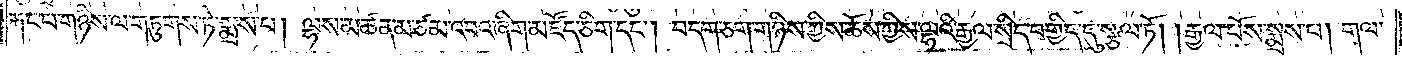རྐང་པ་གཉིས་ལ་གཏུགས་ཏེ་སྨྲས་པ། ལྷས་མཚན་མ་ཙམ་འབའ་ཞིག་མཛོད་ཅིག་དང༌། བདག་ཅག་གཉིས་ཀྱིས་ཆོས་ཀྱིས་ལྷའི་རྒྱལ་སྲིད་བགྱིད་དུ་སྩལ་ཏོ། །རྒྱལ་པོས་སྨྲས་པ། གལ་
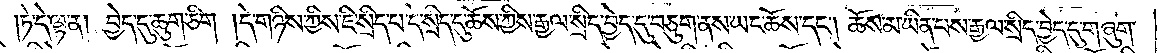།ཏེ་དེ་ལྟ་ན། བྱེད་དུ་ཆུག་ཅིག །དེ་གཉིས་ཀྱིས་ཇི་སྲིད་པ་དེ་སྲིད་དུ་ཆོས་ཀྱིས་རྒྱལ་སྲིད་བྱེད་དུ་བཅུག་ནས་ཡང་ཆོས་དང༌། ཆོས་མ་ཡིན་པས་རྒྱལ་སྲིད་བྱེད་དུ་གཞུག་
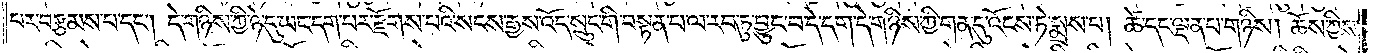པར་བརྩམས་པ་དང༌། དེ་གཉིས་ཀྱི་ཉེ་དུ་ཡང་དག་པར་རྫོགས་པའི་སངས་རྒྱས་འོད་སྲུང་གི་བསྟན་པ་ལ་རབ་ཏུ་བྱུང་བ་དེ་དག་དེ་གཉིས་ཀྱི་གན་དུ་འོངས་ཏེ་སྨྲས་པ། ཚེ་དང་ལྡན་པ་གཉིས། ཆོས་ཀྱིས་
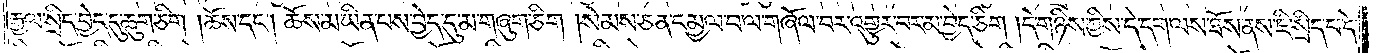རྒྱལ་སྲིད་བྱེད་དུ་ཆུག་ཅིག །ཆོས་དང༌། ཆོས་མ་ཡིན་པས་བྱེད་དུ་མ་གཞུག་ཅིག །སེམས་ཅན་དམྱལ་བ་ལ་གཞོལ་བར་འགྱུར་བར་མ་བྱེད་ཅིག །དེ་གཉིས་ཀྱིས་དེ་དག་ལས་ཐོས་ནས་ཇི་སྲིད་པ་དེ་
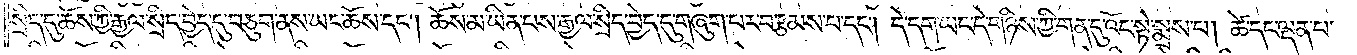སྲིད་དུ་ཆོས་ཀྱི་རྒྱལ་སྲིད་བྱེད་དུ་བཅུག་ནས་ཡང་ཆོས་དང༌། ཆོས་མ་ཡིན་པས་རྒྱལ་སྲིད་བྱེད་དུ་གཞུག་པར་བརྩམས་པ་དང༌། དེ་དག་ཡང་དེ་གཉིས་ཀྱི་གན་དུ་འོང་སྟེ་སྨྲས་པ། ཚེ་དང་ལྡན་པ་
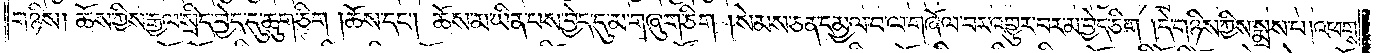གཉིས། ཆོས་ཀྱིས་རྒྱལ་སྲིད་བྱེད་དུ་ཆུག་ཅིག །ཆོས་དང༌། ཆོས་མ་ཡིན་པས་བྱེད་དུ་མ་གཞུག་ཅིག །སེམས་ཅན་དམྱལ་བ་ལ་གཞོལ་བར་འགྱུར་བར་མ་བྱེད་ཅིག །དེ་གཉིས་ཀྱིས་སྨྲས་པ། འཕགས་
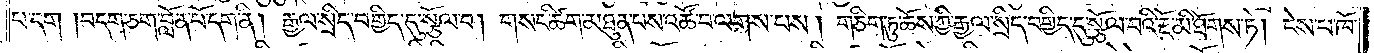པ་དག །བདག་ཅག་བློན་པོ་དག་ནི། རྒྱལ་སྲིད་བགྱིད་དུ་སྩོལ་བ། གསང་ཚིག་མཐུན་པས་འཚོ་བ་ལགས་པས། གཅིག་ཏུ་ཆོས་ཀྱི་རྒྱལ་སྲིད་བགྱིད་དུ་སྩོལ་བའི་རྔོ་མི་ཐོགས་ཏེ། ངེས་པ་ཁོ་
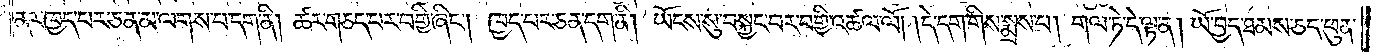ནར་ཁྱེད་པར་ཅན་མ་ལགས་པ་དག་ནི། ཆར་གཅད་པར་བགྱི་ཞིང༌། ཁྱད་པར་ཅན་དག་ནི། ཡོངས་སུ་བསྐྱང་བར་བགྱི་འཚལ་ལོ། །དེ་དག་གིས་སྨྲས་པ། གལ་ཏེ་དེ་ལྟ་ན། ཡོ་བྱད་ཐམས་ཅད་ཕུན་
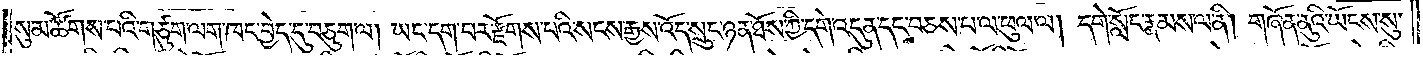སུམ་ཚོགས་པའི་གཙུག་ལག་ཁང་བྱེད་དུ་བཅུག་ལ། ཡང་དག་པར་རྫོགས་པའི་སངས་རྒྱས་འོད་སྲུང་ཉན་ཐོས་ཀྱི་དགེ་འདུན་དང་བཅས་པ་ལ་ཕུལ་ལ། དགེ་སློང་རྣམས་ལ་ནི། གཞོན་ནུའི་ཡོངས་སུ་
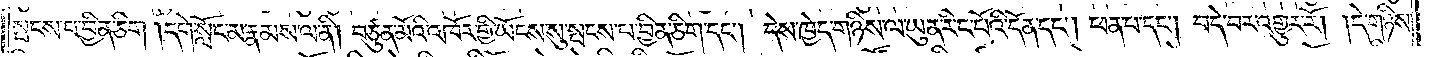སྤངས་པ་བྱིན་ཅིག །དགེ་སློང་མ་རྣམས་ལ་ནི། བཙུན་མོའི་འཁོར་གྱི་ཡོངས་སུ་སྤངས་པ་བྱིན་ཅིག་དང༌། དེས་ཁྱེད་གཉིས་ལ་ཡུན་རིང་པོའི་དོན་དང༌། ཕན་པ་དང༌། བདེ་བར་འགྱུར་རོ། །དེ་གཉིས་
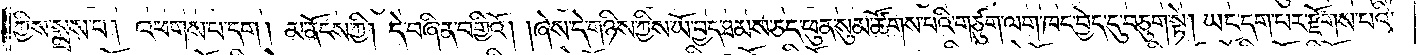ཀྱིས་སྨྲས་པ། འཕགས་པ་དག །མ་ནོངས་ཀྱི། དེ་བཞིན་བགྱིའོ། །ཞེས་དེ་གཉིས་ཀྱིས་ཡོ་བྱད་ཐམས་ཅད་ཕུན་སུམ་ཚོགས་པའི་གཙུག་ལག་ཁང་བྱེད་དུ་བཅུག་སྟེ། ཡང་དག་པར་རྫོགས་པའི་
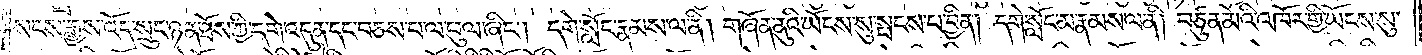སངས་རྒྱས་འོད་སྲུང་ཉན་ཐོས་ཀྱི་དགེ་འདུན་དང་བཅས་པ་ལ་ཕུལ་ཞིང༌། དགེ་སློང་རྣམས་ལ་ནི། གཞོན་ནུའི་ཡོངས་སུ་སྤངས་པ་བྱིན། དགེ་སློང་མ་རྣམས་ལ་ནི། བཙུན་མོའི་འཁོར་གྱི་ཡོངས་སུ་
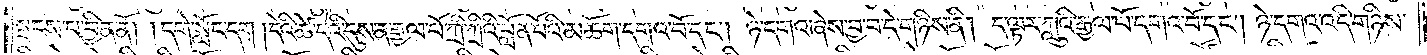སྤངས་པ་བྱིན་ནོ། །དགེ་སློང་དག །དེའི་ཚེ་དེའི་དུས་ན་རྒྱལ་པོ་ཀྲི་ཀྲིའི་བློན་པོའི་མཆོག་དགའ་བོ་དང༌། ཉེ་དགའ་ཞེས་བྱ་བ་དེ་གཉིས་ནི། ད་ལྟར་ཀླུའི་རྒྱལ་པོ་དགའ་བོ་དང༌། ཉེ་དགའ་འདི་གཉིས་
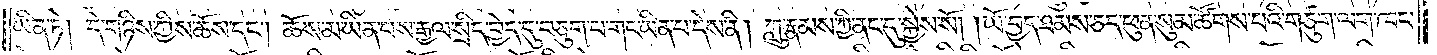ཡིན་ཏེ། དེ་གཉིས་ཀྱིས་ཆོས་དང༌། ཆོས་མ་ཡིན་པས་རྒྱལ་སྲིད་བྱེད་དུ་བཅུག་པ་གང་ཡིན་པ་དེས་ནི། ཀླུ་རྣམས་ཀྱི་ནང་དུ་སྐྱེས་སོ། །ཡོ་བྱད་ཐམས་ཅད་ཕུན་སུམ་ཚོགས་པའི་གཙུག་ལག་ཁང་
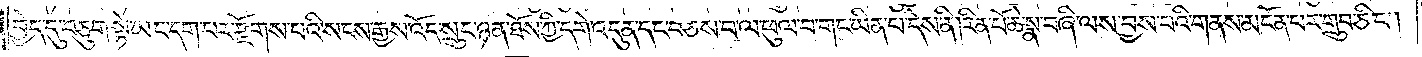བྱེད་དུ་བཅུག་སྟེ་ཡང་དག་པར་རྫོགས་པའི་སངས་རྒྱས་འོད་སྲུང་ཉན་ཐོས་ཀྱི་དགེ་འདུན་དང་བཅས་པ་ལ་ཕུལ་བ་གང་ཡིན་པ་དེས་ནི། རིན་པོ་ཆེ་སྣ་བཞི་ལས་བྱས་པའི་གནས་མངོན་པར་གྲུབ་ཅིང༌།
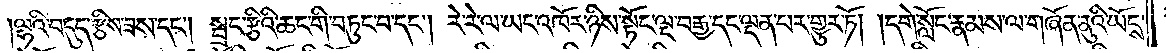ལྷའི་བདུད་རྩིས་ཟས་དང༌། སྦྲང་རྩིའི་ཆང་གི་བཏུང་བ་དང༌། རེ་རེ་ལ་ཡང་འཁོར་ཉིས་སྟོང་ལྔ་བརྒྱ་དང་ལྡན་པར་གྱུར་ཏོ། །དགེ་སློང་རྣམས་ལ་གཞོན་ནུའི་ཡོངས་
